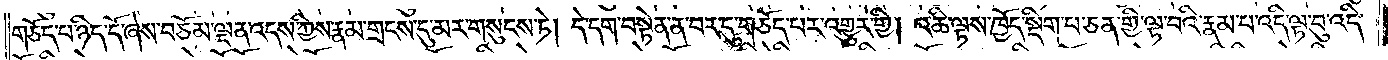གཅོད་པ་ཉིད་དོ་ཞེས་བཅོམ་ལྡན་འདས་ཀྱིས་རྣམ་གྲངས་དུ་མར་གསུངས་ཏེ། དེ་དག་བསྟེན་ན་བར་དུ་གཅོད་པར་འགྱུར་གྱི། འཆི་ལྟས་ཁྱོད་སྡིག་པ་ཅན་གྱི་ལྟ་བའི་རྣམ་པ་འདི་ལྟ་བུ་འདི་
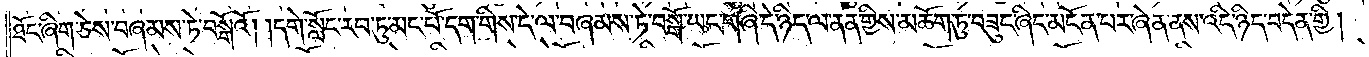ཐོང་ཞིག་ཅེས་བཞམས་ཏེ་བསྒོའོ། །དགེ་སློང་རབ་ཏུ་མང་པོ་དག་གིས་དེ་ལ་བཞམས་ཏེ་བསྒོ་ཡང་གཞི་དེ་ཉིད་ལ་ནན་གྱིས་མཆོག་ཏུ་བཟུང་ཞིང་མངོན་པར་ཞེན་ནས་འདི་ཉིད་བདེན་གྱི།
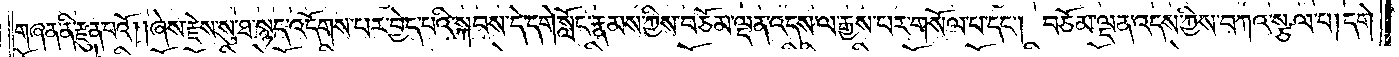གཞན་ནི་རྫུན་པའོ། །ཞེས་རྗེས་སུ་ཐ་སྙད་འདོགས་པར་བྱེད་པའི་སྐབས་དེ་དགེ་སློང་རྣམས་ཀྱིས་བཅོམ་ལྡན་འདས་ལ་རྒྱས་པར་གསོལ་པ་དང༌། བཅོམ་ལྡན་འདས་ཀྱིས་བཀའ་སྩལ་པ། དགེ་
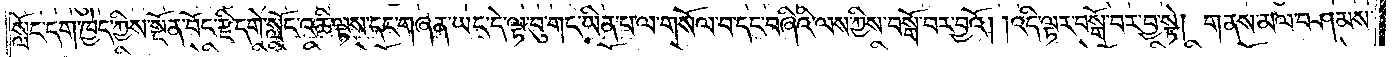སློང་དག་ཁྱེད་ཀྱིས་སྔོན་བོང་རྫི་དགེ་སློང་འཆི་ལྟས་དང་གཞན་ཡང་དེ་ལྟ་བུ་གང་ཡིན་པ་ལ་གསོལ་པ་དང་བཞིའི་ལས་ཀྱིས་བསྒོ་བར་བྱའོ། །འདི་ལྟར་བསྒོ་བར་བྱ་སྟེ། གནས་མལ་བཤམས་
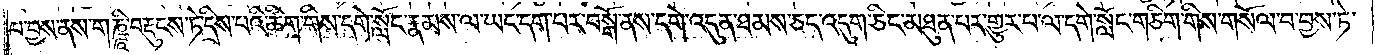པ་བྱས་ནས་གཎྜཱི་བརྡུངས་ཏེ་དྲིས་པའི་ཚིག་གིས་དགེ་སློང་རྣམས་ལ་ཡང་དག་པར་བསྒོ་ནས་དགེ་འདུན་ཐམས་ཅད་འདུག་ཅིང་མཐུན་པར་གྱུར་པ་ལ་དགེ་སློང་གཅིག་གིས་གསོལ་བ་བྱས་ཏེ་
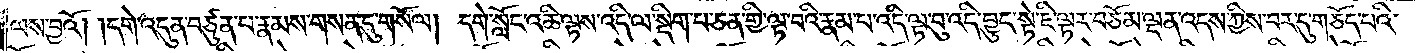ལས་བྱའོ། །དགེ་འདུན་བཙུན་པ་རྣམས་གསན་དུ་གསོལ། དགེ་སློང་འཆི་ལྟས་འདི་ལ་སྡིག་པ་ཅན་གྱི་ལྟ་བའི་རྣམ་པ་འདི་ལྟ་བུ་འདི་བྱུང་སྟེ་ཇི་ལྟར་བཅོམ་ལྡན་འདས་ཀྱིས་བར་དུ་གཅོད་པའི་
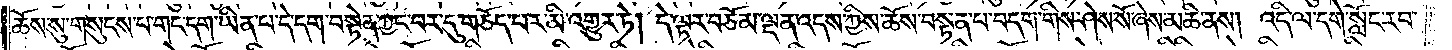ཆོས་སུ་གསུངས་པ་གང་དག་ཡིན་པ་དེ་དག་བསྟེན་ཀྱང་བར་དུ་གཅོད་པར་མི་འགྱུར་ཏེ། དེ་ལྟར་བཅོམ་ལྡན་འདས་ཀྱིས་ཆོས་བསྟན་པ་བདག་གིས་ཤེས་སོ་ཞེས་མཆི་ནས། འདི་ལ་དགེ་སློང་རབ་
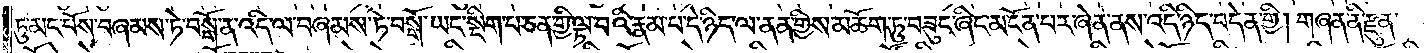ཏུ་མང་པོས་བཞམས་ཏེ་བསྒོ་ན་འདི་ལ་བཞམས་ཏེ་བསྒོ་ཡང་སྡིག་པ་ཅན་གྱི་ལྟ་བའི་རྣམ་པ་དེ་ཉིད་ལ་ནན་གྱིས་མཆོག་ཏུ་བཟུང་ཞིང་མངོན་པར་ཞེན་ནས་འདི་ཉིད་བདེན་གྱི། གཞན་ནི་རྫུན་
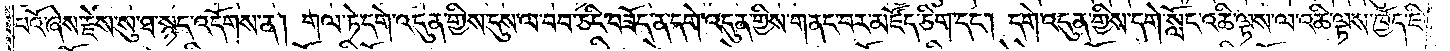པའོ་ཞེས་རྗེས་སུ་ཐ་སྙད་འདོགས་ན། གལ་ཏེ་དགེ་འདུན་གྱིས་དུས་ལ་བབ་ཅིང་བཟོད་ན་དགེ་འདུན་གྱིས་གནང་བར་མཛོད་ཅིག་དང༌། དགེ་འདུན་གྱིས་དགེ་སློང་འཆི་ལྟས་ལ་འཆི་ལྟས་ཁྱོད་ཇི་
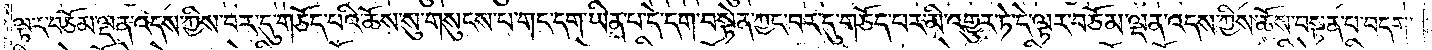ལྟར་བཅོམ་ལྡན་འདས་ཀྱིས་བར་དུ་གཅོད་པའི་ཆོས་སུ་གསུངས་པ་གང་དག་ཡིན་པ་དེ་དག་བསྟེན་ཀྱང་བར་དུ་གཅོད་པར་མི་འགྱུར་ཏེ་དེ་ལྟར་བཅོམ་ལྡན་འདས་ཀྱིས་ཆོས་བསྟན་པ་བདག་
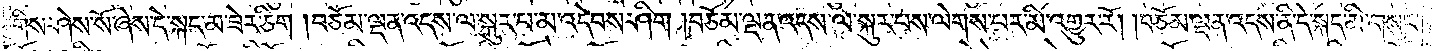གིས་ཤེས་སོ་ཞེས་དེ་སྐད་མ་ཟེར་ཅིག །བཅོམ་ལྡན་འདས་ལ་སྐུར་པ་མ་འདེབས་ཤིག །བཅོམ་ལྡན་འདས་ལ་སྐུར་པས་ལེགས་པར་མི་འགྱུར་རོ། །བཅོམ་ལྡན་འདས་ནི་དེ་སྐད་མི་གསུང་
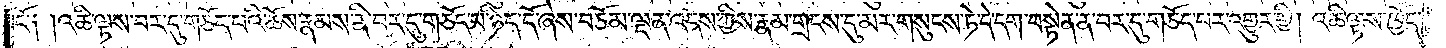ངོ༑ །འཆི་ལྟས་བར་དུ་གཅོད་པའི་ཆོས་རྣམས་ནི་བར་དུ་གཅོད་པ་ཉིད་དོ་ཞེས་བཅོམ་ལྡན་འདས་ཀྱིས་རྣམ་གྲངས་དུ་མར་གསུངས་ཏེ་དེ་དག་བསྟེན་ན་བར་དུ་གཅོད་པར་འགྱུར་གྱི། འཆི་ལྟས་ཁྱོད་
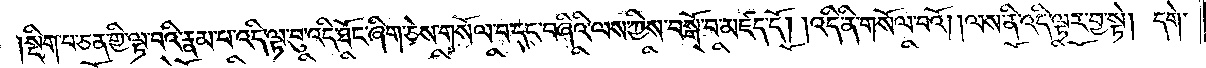སྡིག་པ་ཅན་གྱི་ལྟ་བའི་རྣམ་པ་འདི་ལྟ་བུ་འདི་ཐོང་ཞིག་ཅེས་གསོལ་བ་དང་བཞིའི་ལས་ཀྱིས་བསྒོ་བ་མཛད་དོ། །འདི་ནི་གསོལ་བའོ། །ལས་ནི་འདི་ལྟ་བྱ་སྟེ། དགེ་
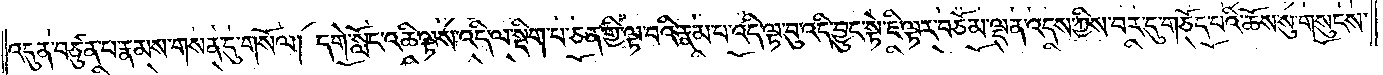འདུན་བཙུན་པ་རྣམས་གསན་དུ་གསོལ། དགེ་སློང་འཆི་ལྟས་འདི་ལ་སྡིག་པ་ཅན་གྱི་ལྟ་བའི་རྣམ་པ་འདི་ལྟ་བུ་འདི་བྱུང་སྟེ་ཇི་ལྟར་བཅོམ་ལྡན་འདས་ཀྱིས་བར་དུ་གཅོད་པའི་ཆོས་སུ་གསུངས་
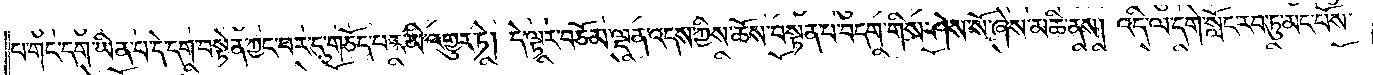པ་གང་དག་ཡིན་པ་དེ་དག་བསྟེན་ཀྱང་བར་དུ་གཅོད་པར་མི་འགྱུར་ཏེ། དེ་ལྟར་བཅོམ་ལྡན་འདས་ཀྱིས་ཆོས་བསྟན་པ་བདག་གིས་ཤེས་སོ་ཞེས་མཆི་ནས། འདི་ལ་དགེ་སློང་རབ་ཏུ་མང་པོས་
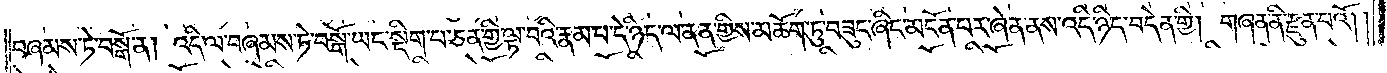བཞམས་ཏེ་བསྒོ་ན། འདི་ལ་བཞམས་ཏེ་བསྒོ་ཡང་སྡིག་པ་ཅན་གྱི་ལྟ་བའི་རྣམ་པ་དེ་ཉིད་ལ་ནན་གྱིས་མཆོག་ཏུ་བཟུང་ཞིང་མངོན་པར་ཞེན་ནས་འདི་ཉིད་བདེན་གྱི། གཞན་ནི་རྫུན་པའོ། །
